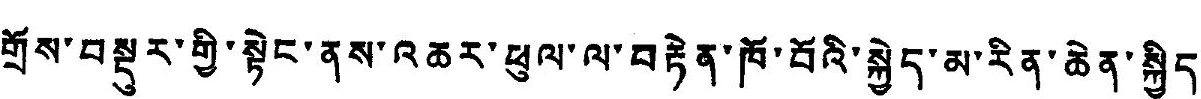གྲོས་བསྡུར་གྱི་སྟེང་ནས་འཆར་ཕུལ་ལ་བརྟེན་ཁོ་བོའི་སྐྱེད་མ་རིན་ཆེན་སྐྱིད་
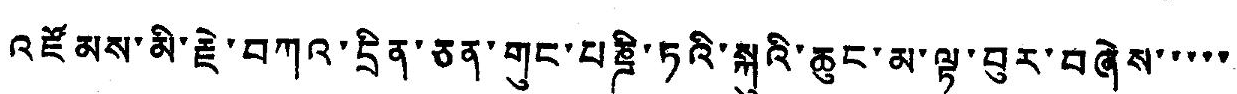འཛོམས་མི་རྗེ་བཀའ་དྲིན་ཅན་གུང་པཎྜི་ཏའི་སྐུའི་ཆུང་མ་ལྟ་བུར་བཞེས་་་་་
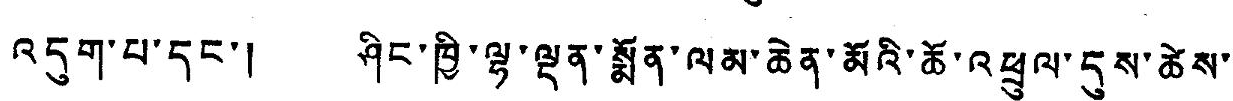འདུག་པ་དང་། ཤིང་ལྷ་ལྡན་སྨོན་ལམ་ཆེན་མོའི་ཆོ་འཕྲུལ་དུས་ཚེས་
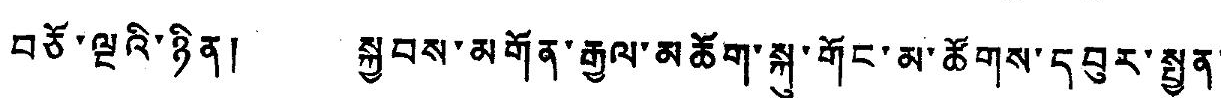བཅོ་ལྔའི་ཉིན། སྐྱབས་མགོན་རྒྱལ་མཆོག་སྐུ་གོང་མ་ཚོགས་དབུས་སྤྱན་
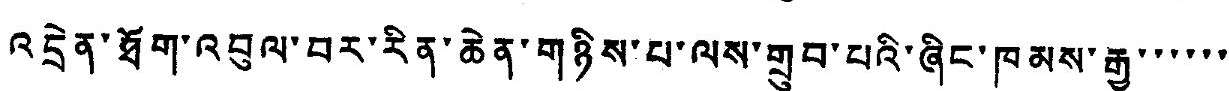འདྲེན་ཐོག་འབུལ་བར་རིན་ཆེན་གཉིས་པ་ལས་གྲུབ་པའི་ཞིང་ཁམས་རྒྱ་་་་་་
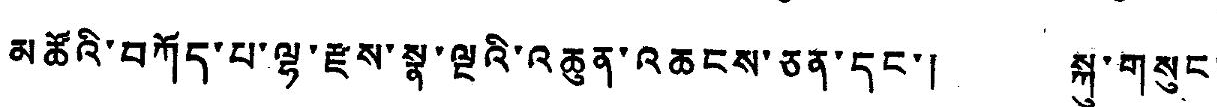མཚོའི་བཀོད་པ་ལྷ་རྫས་སྣ་ལྔའི་འཆུན་འཆངས་ཅན་དང་། སྐུ་གསུང་
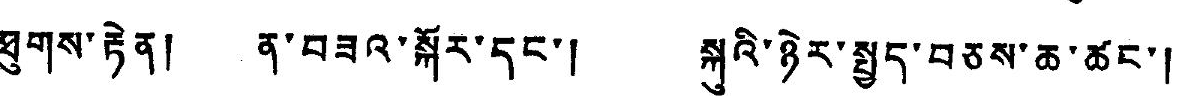ཐུགས་རྟེན། ན་བཟའ་སྐོར་དང་། སྐུའི་ཉེར་སྤྱད་བཅས་ཆ་ཚང་།
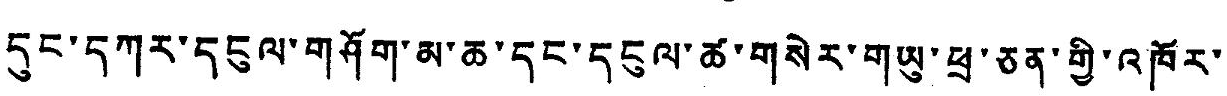དུང་དཀར་དངུལ་གཤོག་མ་ཆ་དང་དངུལ་ཚ་གསེར་གཡུ་ཕྲ་ཅན་གྱི་འཁོར་
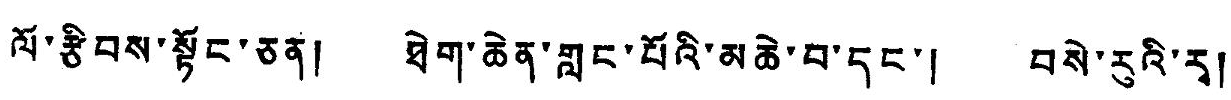ལོ་རྩིབས་སྟོང་ཅན་། ཐེག་ཆེན་གླང་པོའི་མཆེ་བ་དང་། བསེ་རུའི་རྭ།
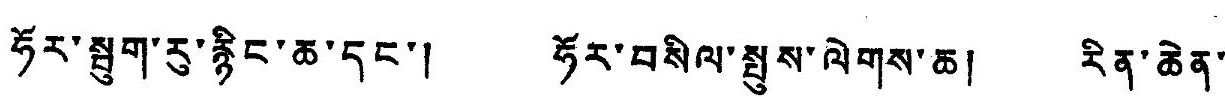ཧོར་སྦུག་རུ་རྙིང་ཆ་དང་། ཧོར་བསིལ་སྤུས་ལེགས་ཆ། རིན་ཆེན་
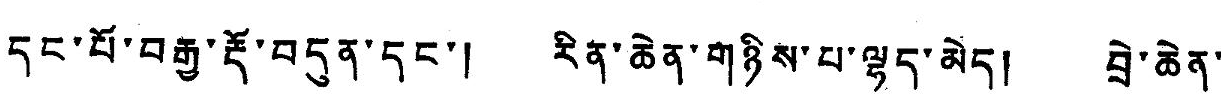དང་པོ་བརྒྱ་རྡོ་བདུན་དང་། རིན་ཆེན་གཉིས་པ་ལྷད་མེད། བྲེ་ཆེན་
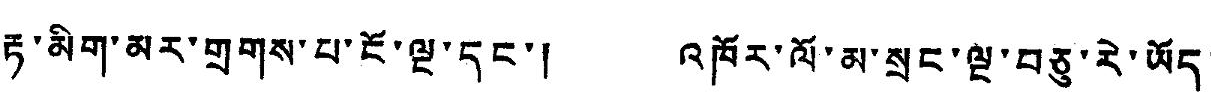རྟ་མིག་མར་གྲགས་པ་ངོ་ལྔ་དང་། འཁོར་ལོ་མ་སྲང་ལྔ་བཅུ་རེ་ཡོད་
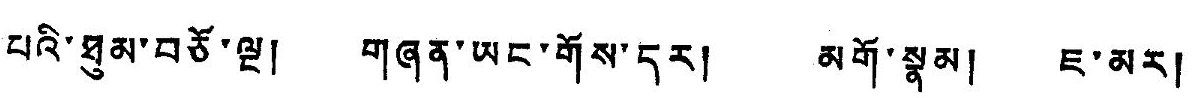པའི་ཐུམ་བཅོ་ལྔ། གཞན་ཡང་གོས་དར། མགོ་སྣམ། ཇ་མར།
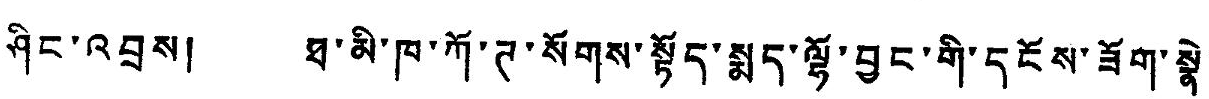ཤིང་འབྲས། ཐ་མི་ཁ་ཀོ་ཊ་སོགས་སྟོད་སྨད་ལྷོ་བྱང་གི་དངོས་ཟོག་སྣེ་
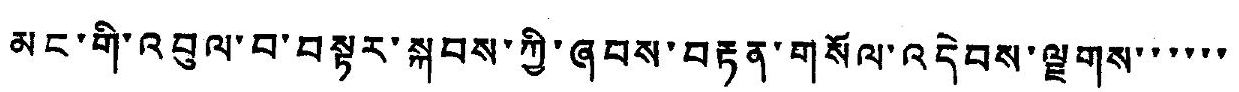མང་གི་འབུལ་བ་བསྟར་སྐབས་ཀྱི་ཞབས་བརྟན་གསོལ་འདེབས་ལྗགས་་་་་་
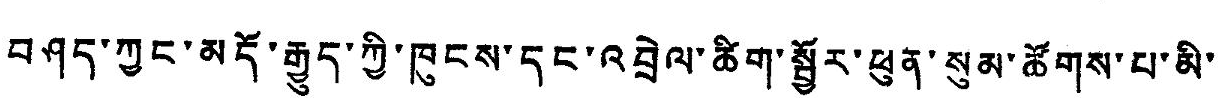བཤད་ཀྱང་མདོ་རྒྱུད་ཀྱི་ཁུངས་དང་འབྲེལ་ཚིག་སྦྱོར་ཕུན་སུམ་ཚོགས་པ་མི་
